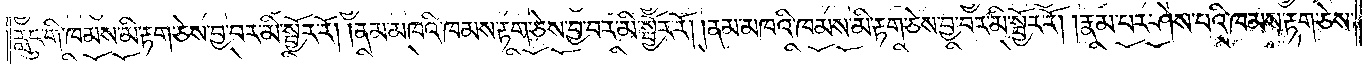རླུང་གི་ཁམས་མི་རྟག་ཅེས་བྱ་བར་མི་སྦྱོར་རོ། །ནམ་མཁའི་ཁམས་རྟག་ཅེས་བྱ་བར་མི་སྦྱོར་རོ། །ནམ་མཁའི་ཁམས་མི་རྟག་ཅེས་བྱ་བར་མི་སྦྱོར་རོ། །རྣམ་པར་ཤེས་པའི་ཁམས་རྟག་ཅེས་
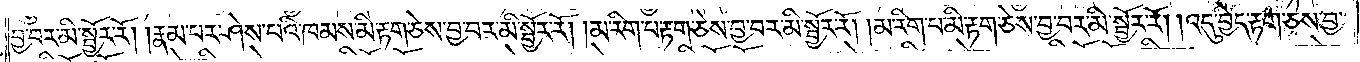བྱ་བར་མི་སྦྱོར་རོ། །རྣམ་པར་ཤེས་པའི་ཁམས་མི་རྟག་ཅེས་བྱ་བར་མི་སྦྱོར་རོ། །མ་རིག་པ་རྟག་ཅེས་བྱ་བར་མི་སྦྱོར་རོ། །མ་རིག་པ་མི་རྟག་ཅེས་བྱ་བར་མི་སྦྱོར་རོ། །འདུ་བྱེད་རྟག་ཅེས་བྱ་
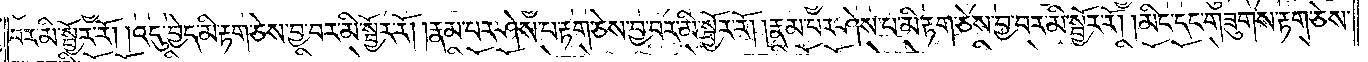བར་མི་སྦྱོར་རོ། །འདུ་བྱེད་མི་རྟག་ཅེས་བྱ་བར་མི་སྦྱོར་རོ། །རྣམ་པར་ཤེས་པ་རྟག་ཅེས་བྱ་བར་མི་སྦྱོར་རོ། །རྣམ་པར་ཤེས་པ་མི་རྟག་ཅེས་བྱ་བར་མི་སྦྱོར་རོ། །མིང་དང་གཟུགས་རྟག་ཅེས་
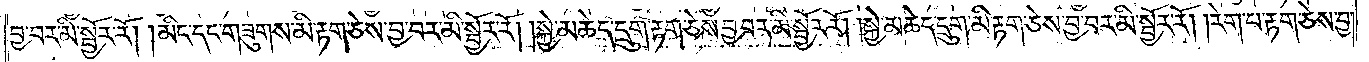བྱ་བར་མི་སྦྱོར་རོ། །མིང་དང་གཟུགས་མི་རྟག་ཅེས་བྱ་བར་མི་སྦྱོར་རོ། །སྐྱེ་མཆེད་དྲུག་རྟག་ཅེས་བྱ་བར་མི་སྦྱོར་རོ། །སྐྱེ་མཆེད་དྲུག་མི་རྟག་ཅེས་བྱ་བར་མི་སྦྱོར་རོ། །རེག་པ་རྟག་ཅེས་བྱ་
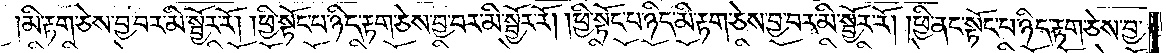མི་རྟག་ཅེས་བྱ་བར་མི་སྦྱོར་རོ། །ཕྱི་སྟོང་པ་ཉིད་རྟག་ཅེས་བྱ་བར་མི་སྦྱོར་རོ། །ཕྱི་སྟོང་པ་ཉིད་མི་རྟག་ཅེས་བྱ་བར་མི་སྦྱོར་རོ། །ཕྱི་ནང་སྟོང་པ་ཉིད་རྟག་ཅེས་བྱ་
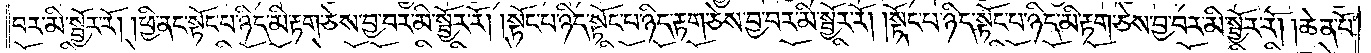བར་མི་སྦྱོར་རོ། །ཕྱི་ནང་སྟོང་པ་ཉིད་མི་རྟག་ཅེས་བྱ་བར་མི་སྦྱོར་རོ། །སྟོང་པ་ཉིད་སྟོང་པ་ཉིད་རྟག་ཅེས་བྱ་བར་མི་སྦྱོར་རོ། །སྟོང་པ་ཉིད་སྟོང་པ་ཉིད་མི་རྟག་ཅེས་བྱ་བར་མི་སྦྱོར་རོ། །ཆེན་པོ་
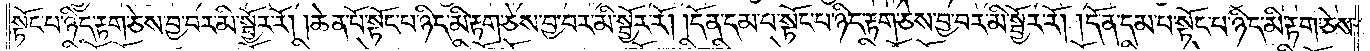སྟོང་པ་ཉིད་རྟག་ཅེས་བྱ་བར་མི་སྦྱོར་རོ། །ཆེན་པོ་སྟོང་པ་ཉིད་མི་རྟག་ཅེས་བྱ་བར་མི་སྦྱོར་རོ། །དོན་དམ་པ་སྟོང་པ་ཉིད་རྟག་ཅེས་བྱ་བར་མི་སྦྱོར་རོ། །དོན་དམ་པ་སྟོང་པ་ཉིད་མི་རྟག་ཅེས་
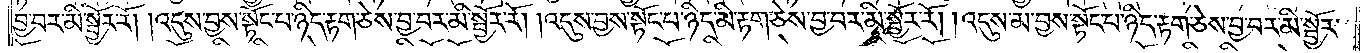བྱ་བར་མི་སྦྱོར་རོ། །འདུས་བྱས་སྟོང་པ་ཉིད་རྟག་ཅེས་བྱ་བར་མི་སྦྱོར་རོ། །འདུས་བྱས་སྟོང་པ་ཉིད་མི་རྟག་ཅེས་བྱ་བར་མི་སྦྱོར་རོ། །འདུས་མ་བྱས་སྟོང་པ་ཉིད་རྟག་ཅེས་བྱ་བར་མི་སྦྱོར་
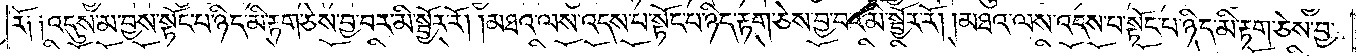རོ༑ ༑འདུས་མ་བྱས་སྟོང་པ་ཉིད་མི་རྟག་ཅེས་བྱ་བར་མི་སྦྱོར་རོ། །མཐའ་ལས་འདས་པ་སྟོང་པ་ཉིད་རྟག་ཅེས་བྱ་བར་མི་སྦྱོར་རོ། །མཐའ་ལས་འདས་པ་སྟོང་པ་ཉིད་མི་རྟག་ཅེས་བྱ་
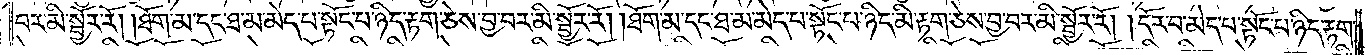བར་མི་སྦྱོར་རོ། །ཐོག་མ་དང་ཐ་མ་མེད་པ་སྟོང་པ་ཉིད་རྟག་ཅེས་བྱ་བར་མི་སྦྱོར་རོ། །ཐོག་མ་དང་ཐ་མ་མེད་པ་སྟོང་པ་ཉིད་མི་རྟག་ཅེས་བྱ་བར་མི་སྦྱོར་རོ། །དོར་བ་མེད་པ་སྟོང་པ་ཉིད་རྟག་
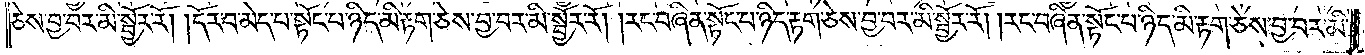ཅེས་བྱ་བར་མི་སྦྱོར་རོ། །དོར་བ་མེད་པ་སྟོང་པ་ཉིད་མི་རྟག་ཅེས་བྱ་བར་མི་སྦྱོར་རོ། །རང་བཞིན་སྟོང་པ་ཉིད་རྟག་ཅེས་བྱ་བར་མི་སྦྱོར་རོ། །རང་བཞིན་སྟོང་པ་ཉིད་མི་རྟག་ཅེས་བྱ་བར་མི་
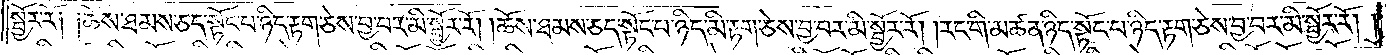སྦྱོར་རོ༑ ༑ཆོས་ཐམས་ཅད་སྟོང་པ་ཉིད་རྟག་ཅེས་བྱ་བར་མི་སྦྱོར་རོ། །ཆོས་ཐམས་ཅད་སྟོང་པ་ཉིད་མི་རྟག་ཅེས་བྱ་བར་མི་སྦྱོར་རོ། །རང་གི་མཚན་ཉིད་སྟོང་པ་ཉིད་རྟག་ཅེས་བྱ་བར་མི་སྦྱོར་རོ། །
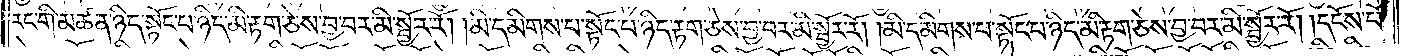རང་གི་མཚན་ཉིད་སྟོང་པ་ཉིད་མི་རྟག་ཅེས་བྱ་བར་མི་སྦྱོར་རོ། །མི་དམིགས་པ་སྟོང་པ་ཉིད་རྟག་ཅེས་བྱ་བར་མི་སྦྱོར་རོ། །མི་དམིགས་པ་སྟོང་པ་ཉིད་མི་རྟག་ཅེས་བྱ་བར་མི་སྦྱོར་རོ། །དངོས་པོ་
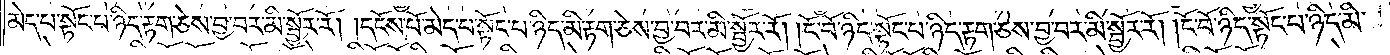མེད་པ་སྟོང་པ་ཉིད་རྟག་ཅེས་བྱ་བར་མི་སྦྱོར་རོ། །དངོས་པོ་མེད་པ་སྟོང་པ་ཉིད་མི་རྟག་ཅེས་བྱ་བར་མི་སྦྱོར་རོ། །ངོ་བོ་ཉིད་སྟོང་པ་ཉིད་རྟག་ཅེས་བྱ་བར་མི་སྦྱོར་རོ། །ངོ་བོ་ཉིད་སྟོང་པ་ཉིད་མི་
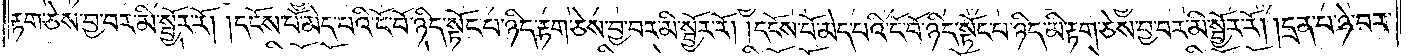རྟག་ཅེས་བྱ་བར་མི་སྦྱོར་རོ། །དངོས་པོ་མེད་པའི་ངོ་བོ་ཉིད་སྟོང་པ་ཉིད་རྟག་ཅེས་བྱ་བར་མི་སྦྱོར་རོ། །དངོས་པོ་མེད་པའི་ངོ་བོ་ཉིད་སྟོང་པ་ཉིད་མི་རྟག་ཅེས་བྱ་བར་མི་སྦྱོར་རོ། །དྲན་པ་ཉེ་བར་
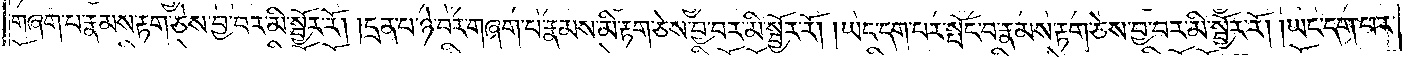གཞག་པ་རྣམས་རྟག་ཅེས་བྱ་བར་མི་སྦྱོར་རོ། །དྲན་པ་ཉེ་བར་གཞག་པ་རྣམས་མི་རྟག་ཅེས་བྱ་བར་མི་སྦྱོར་རོ། །ཡང་དག་པར་སྤོང་བ་རྣམས་རྟག་ཅེས་བྱ་བར་མི་སྦྱོར་རོ། །ཡང་དག་པར་
